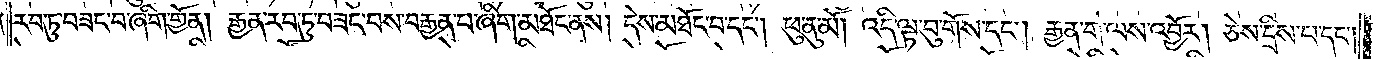རབ་ཏུ་བཟང་བ་ཞིག་གྱོན། རྒྱན་རབ་ཏུ་བཟང་བས་བརྒྱན་པ་ཞིག་མཐོང་ནས། དེས་མཐོང་བ་དང༌། ཕུ་ནུ་མོ། འདི་ལྟ་བུ་གོས་དང༌། རྒྱན་ག་ལས་འབྱོར། ཅེས་དྲིས་པ་དང༌།
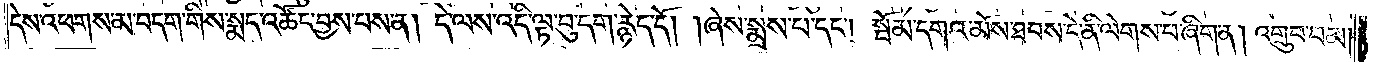དེས་འཕགས་མ་བདག་གིས་སྨད་འཚོང་བྱས་པས་ན། དེ་ལས་འདི་ལྟ་བུ་དག་རྙེད་དོ། །ཞེས་སྨྲས་པ་དང༌། སྦོམ་དགའ་མོས་ཐབས་དེ་ནི་ལེགས་པ་ཞིག་ན། འགྲུབ་བམ།
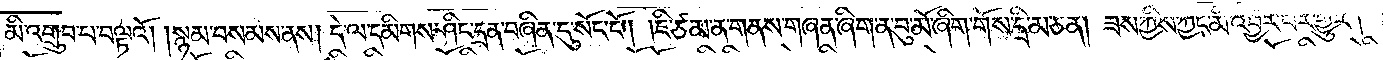མི་འགྲུབ་པ་བལྟའོ། །སྙམ་བསམས་ནས། དེ་ལ་དམིགས་ཤིང་དྲན་བཞིན་དུ་སོང་ངོ༌། །ཇི་ཙམ་ན་གནས་གཞན་ཞིག་ན་བུ་མོ་ཞིག་གོས་དྲི་མ་ཅན། ཟས་ཀྱིས་ཀྱང་མི་འབྱོར་པར་གྱུར།
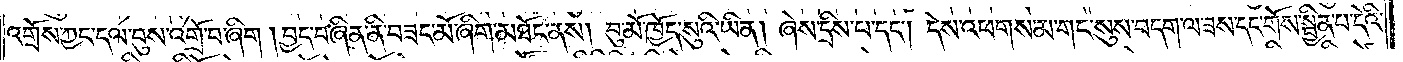འགྲོས་ཀྱང་དལ་བུས་འགྲོ་བ་ཞིག །བྱད་བཞིན་ནི་བཟང་མོ་ཞིག་མཐོང་ནས། བུ་མོ་ཁྱོད་སུའི་ཡིན། ཞེས་དྲིས་པ་དང༌། དེས་འཕགས་མ་གང་སུས་བདག་ལ་ཟས་དང་གོས་སྦྱིན་པ་དེའི་
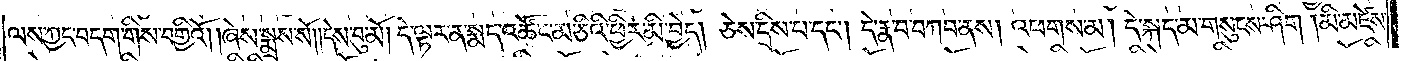ལས་ཀྱང་བདག་གིས་བགྱིའོ། །ཞེས་སྨྲས་སོ། །དེས་བུ་མོ། དེ་ལྟར་ན་སྨད་འཚོང་མ་ཅིའི་ཕྱིར་མི་བྱེད། ཅེས་དྲིས་པ་དང༌། དེ་རྣ་བ་བཀབ་ནས། འཕགས་མ། དེ་སྐད་མ་གསུངས་ཤིག །མི་མཛེས་
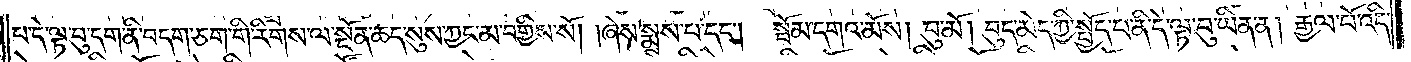པ་དེ་ལྟ་བུ་དག་ནི་བདག་ཅག་གི་རིགས་ལ་སྔོན་ཆད་སུས་ཀྱང་མ་བགྱིས་སོ། །ཞེས་སྨྲས་པ་དང༌། སྦོམ་དགའ་མོས། བུ་མོ། བུད་མེད་ཀྱི་སྤྱོད་པ་ནི་དེ་ལྟ་བུ་ཡིན་ན། རྒྱལ་པོ་འདི་
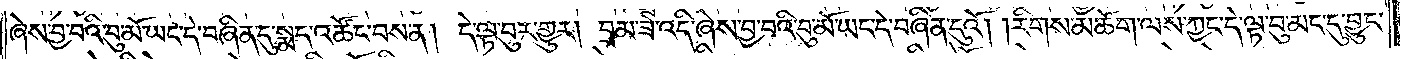ཞེས་བྱ་བའི་བུ་མོ་ཡང་དེ་བཞིན་དུ་སྨད་འཚོང་བས་ན། དེ་ལྟ་བུར་གྱུར། བྲམ་ཟེ་འདི་ཞེས་བྱ་བའི་བུ་མོ་ཡང་དེ་བཞིན་དུའོ། །རིགས་མཆོག་ལས་ཀྱང་དེ་ལྟ་བུ་མང་དུ་བྱུང་
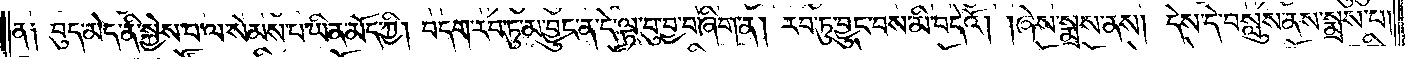ན༑ བུད་མེད་ནི་སྐྱེས་པ་ལ་སེམས་པ་ཡིན་མོད་ཀྱི། བདག་རབ་ཏུ་མ་བྱུང་ན་དེ་ལྟ་བུ་བྱ་བ་ཞིག་ན། རབ་ཏུ་བྱུང་བས་མི་བདེའོ། །ཞེས་སྨྲས་ནས། དེས་དེ་བསླུས་ནས་སྨྲས་པ།
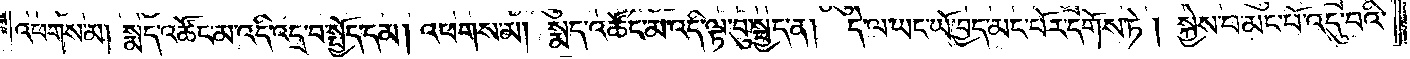འཕགས་མ། སྨད་འཚོང་མ་འདི་འདྲ་བ་སྤྱོད་དམ། འཕགས་མ། སྨད་འཚོང་མ་འདི་ལྟ་བུ་སྤྱད་ན། དེ་ལ་ཡང་ཡོ་བྱད་མང་པོར་དགོས་ཏེ། སྐྱེས་པ་མང་པོ་འདུ་བའི་
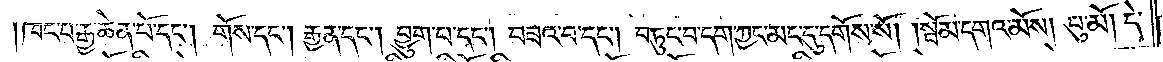ཁང་པ་རྒྱ་ཆེན་པོ་དང༌། གོས་དང༌། རྒྱན་དང༌། བྱུག་པ་དང༌། བཟའ་བ་དང༌། བཏུང་བ་དག་ཀྱང་མང་དུ་དགོས་སོ། །སྦོམ་དགའ་མོས། བུ་མོ། དེ་
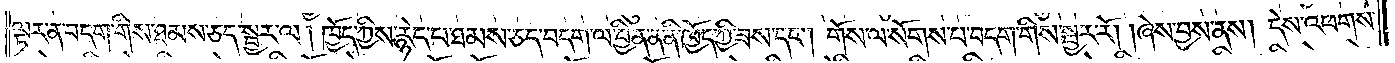ལྟར་ན་བདག་གིས་ཐམས་ཅད་སྦྱར་ལ། ཁྱོད་ཀྱིས་རྙེད་པ་ཐམས་ཅད་བདག་ལ་བྱིན་ན་ནི་ཁྱོད་ཀྱི་ཟས་དང༌། གོས་ལ་སོགས་པ་བདག་གིས་སྦྱར་རོ། །ཞེས་བྱས་ནས། དེས་འཕགས་
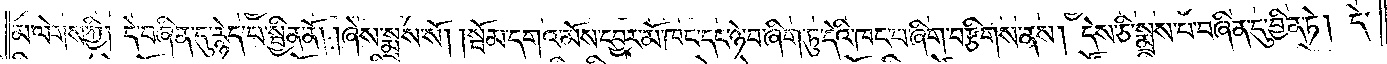མ་ལེགས་ཀྱི། དེ་བཞིན་དུ་རྙེད་པ་སྦྱིན་ནོ། །ཞེས་སྨྲས་སོ། །སྦོམ་དགའ་མོས་དབྱར་མོ་ཁང་དང་ཉེ་བ་ཞིག་ཏུ་དེའི་ཁང་པ་ཞིག་བརྩིགས་ནས། དེས་ཅི་སྨྲས་པ་བཞིན་དུ་བྱིན་ཏེ། དེ་
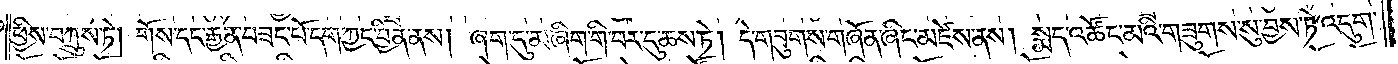ཕྱིས་བཀྲུས་ཏེ། གོས་དང་རྒྱན་བཟང་པོ་དག་ཀྱང་བྱིན་ནས། ཞག་དུ་མ་ཞིག་གི་བར་དུ་ཆས་ཏེ། དེ་གཟུགས་གཞོན་ཞིང་མཛེས་ནས། སྨད་འཚོང་མའི་གཟུགས་སུ་བྱས་ཏེ་འདུག་
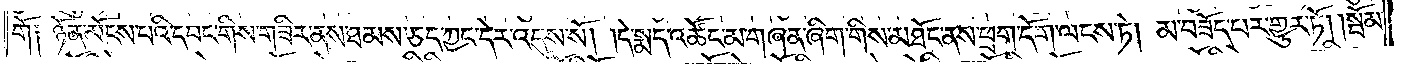གོ༑ ཉོན་མོངས་པའི་དབང་གིས་གཟིར་ནས་ཐམས་ཅད་ཀྱང་དེར་འདུས་སོ། །དེ་སྨད་འཚོང་མ་གཞན་ཞིག་གིས་མཐོང་ནས་ཕྲག་དོག་ལངས་ཏེ། མ་བཟོད་པར་གྱུར་ཏོ། །སྦོམ་
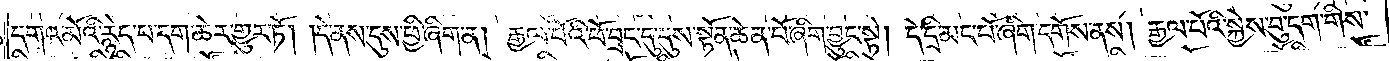དགའ་མོའི་རྙེད་པ་དག་ཆེར་གྱུར་ཏོ། །དེ་ནས་དུས་ཕྱི་ཞིག་ན། རྒྱལ་པོའི་ཕོ་བྲང་དུ་དུས་སྟོན་ཆེན་པོ་ཞིག་བྱུང་སྟེ། དེ་དྲི་མང་པོ་ཞིག་དགོས་ནས། རྒྱལ་པོའི་སྐྱེས་བུ་དག་གིས་
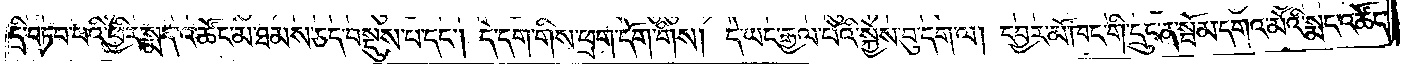དྲི་བཏབ་པའི་ཕྱིར་སྨད་འཚོང་མ་ཐམས་ཅད་བསྡུས་པ་དང༌། དེ་དག་གིས་ཕྲག་དོག་གིས། དེ་ཡང་རྒྱལ་པོའི་སྐྱེས་བུ་དག་ལ། དབྱར་མོ་ཁང་གི་དྲུང་ན་སྦོམ་དགའ་མོའི་སྨད་འཚོང་
